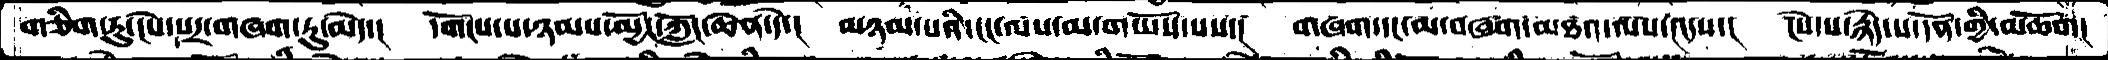གཅིག་ཏུ་ངེས་པར་གཞག་ཏུ་མེད་།  དགོངས་པ་ཉམས་མྱོང་ཀློང་ཆེན་དེ་།  མཉམ་པའི་ངང་ལས་མ་གཡོས་པས་།  གཞག་དང་མ་བཞག་མཐའ་ལས་འདས་།  ངེས་པ་རྙེད་པ་དོན་གྱི་མཆོག།
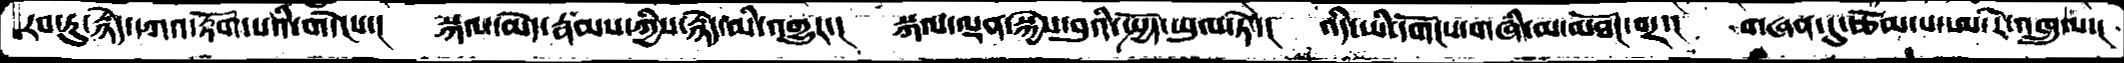རབ་ཏུ་རྙེད་དཀའ་རྟོག་པའི་གདེངས་།  སྐལ་མེད་རྣམས་ཀྱིས་རྙེད་མི་འགྱུར་།  སྐལ་ལྡན་སྐྱེས་བུའི་སྤྱོད་ཡུལ་ཏེ་།  འདི་ཡི་དགོངས་གཞི་མ་མཐོང་བར་།  གཞན་དུ་རྩོམ་པ་ཨ་རེ་འཁྲུལ་།
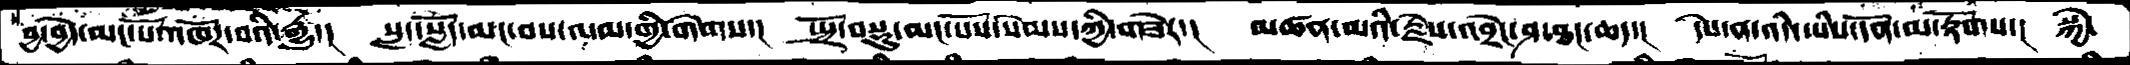བྱ་བྱེད་མང་པོ་འཁོར་བའི་རྒྱུ་།  སླད་སློད་མང་བས་ལམ་གྱི་གེགས་།  སྤྲོ་བསྡུ་མང་པོས་སེམས་ཀྱི་གཟེར་།  མཚན་མའི་རྗེས་འབྲེང་ཤ་ཐང་ཆད་།  དེས་ན་འདི་ཡིས་དོན་མ་རྟོགས་།  སྐྱེ་
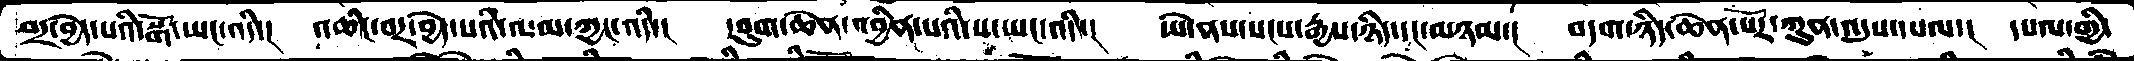བར་བྱེད་པའི་སྒོ་ཡང་འདི་།  འཆིང་བར་བྱེད་པའི་ལམ་ཀྱང་འདི་།  དབུག་ཆེན་འབྱིན་པའི་ས་ཡང་འདི་།  ཡེ་ནས་སངས་རྒྱས་ཉིད་དང་མཉམ་།  བདག་ཉིད་ཆེན་པོར་ཀུན་འདུས་དཔལ་།  དཔལ་གྱི་
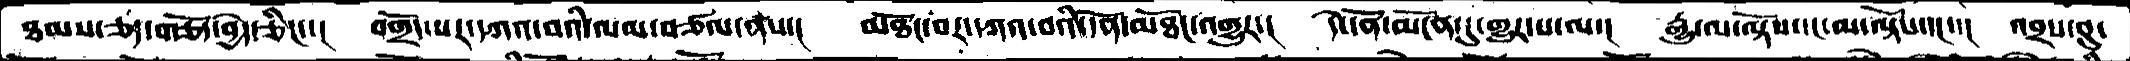ཐམས་ཅད་གཅོད་བྱེད་ཅིང་།  བགྲོད་པར་དཀའ་བའི་ལམ་བཙལ་ནས་།  མཐོང་བར་དཀའ་བའི་དོན་མཐོང་འགྱུར་།  དེ་དོན་མངོན་དུ་གྱུར་པ་ལ་།  རྒྱུ་ལ་ལྟོས་དང་མ་ལྟོས་དང་།  འབྲས་བུ་
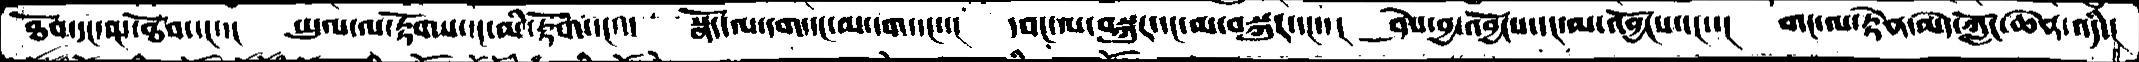ཐོབ་དང་མ་ཐོབ་དང་་།  ཡུལ་ལ་རྟོགས་དང་མི་རྟོག་དང་་་  སྣོད་ལ་དག་དང་མ་དག་དང་་།  དབང་ལ་བསྐུར་དང་མ་བསྐུར་དང་་།  ཤེས་བྱ་འབྱོངས་དང་མ་འབྱོངས་དང་་།  གང་ལ་རྟེན་མེད་ཀློང་ཆེན་འདི་།
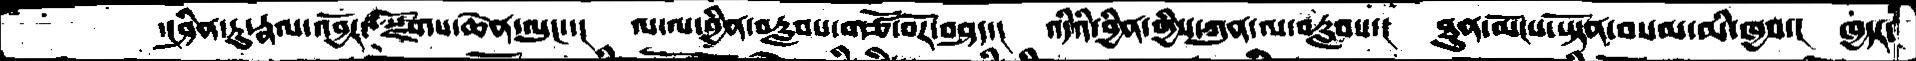་།ཤིན་ཏུ་རྣལ་འབྱོར་སྫོགས་ཆེན་ལུང་་།  ལ་ལ་བྱིན་བརླབས་གཙོ་བོར་བཤད་།  འདིའི་བྱིན་གྱིས་ཀུན་ལ་བརླབས་།  ཐུན་མོངས་ཡྟོན་བསམ་མི་ཁྱབ་།  ཁྱདར་
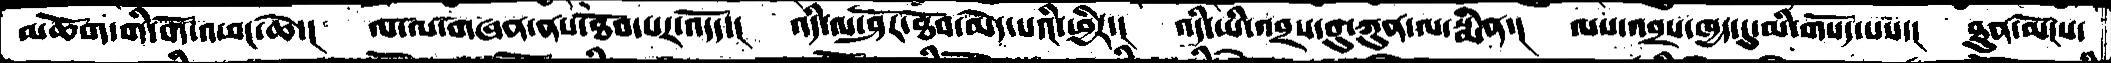མཆོག་གི་གོ་འཕང་ཆེ་།  ལ་ལ་གཞན་ནས་ཐོབ་པར་འདོད་།  འདི་ལ་ཤོར་ཐོབ་མེད་པའི་ཕྱིར་།  འདི་ཡི་འབྲས་བུ་ཀུན་ལ་སྨིན་།  ལས་འབྲས་ཁྱད་དུ་མི་གསོད་པས་།  ཐུན་མོངས་
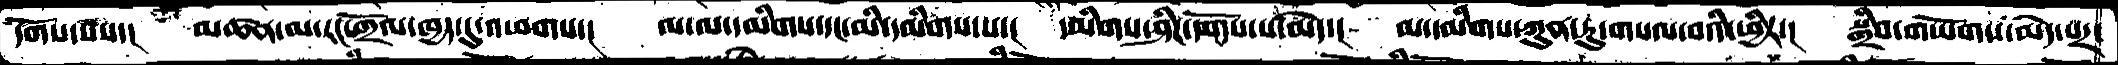དགོས་པས་།  མཚན་མ་རང་་གྲོལ་ཁྱད་དུ་འཕགས་།  ལ་ལ་དམིགས་དང་མི་དམིགས་པ་།  དམིགས་ཤིང་དགོས་པ་མེད་།  མ་དམིགས་ཀུན་ཏུ་གསལ་བའི་ཕྱིར་།  སྒྲིབ་གཡོགས་མེད་པར་
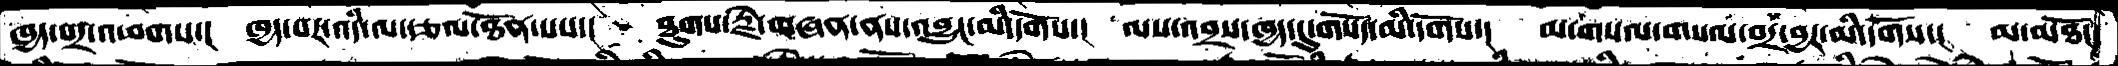ཁྱད་པར་འཕགས་།  ཁྱད་པར་འདི་ལ་རྩལ་ཐོན་པས་།  ཐུགས་རྗེ་གཞན་ནས་འབྱུང་མི་དགོས་།  ལས་འབྲས་ཁྱད་དུ་གསོད་མི་དགོས་།  མ་གསལ་གསལ་བར་བྱར་མི་དགོས་།  མ་མཐོང་
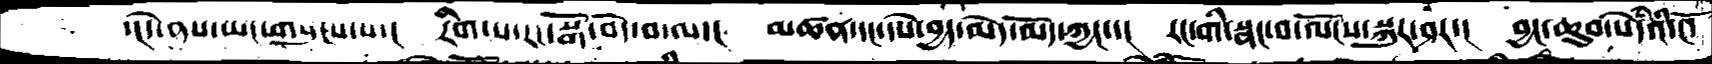་།དེ་ནས་ཡང་གསུངས་པ་།  རིག་པ་རང་སྒོ་བདེ་བ་ལ་།  མཚན་དང་དཔེ་བྱད་མེད་མོད་ཀྱང་་།  རང་གི་སྣང་བ་ལོངས་སྐུར་ཤར་།  བྱང་ཆུབ་སེཾདེའི་ངོ་
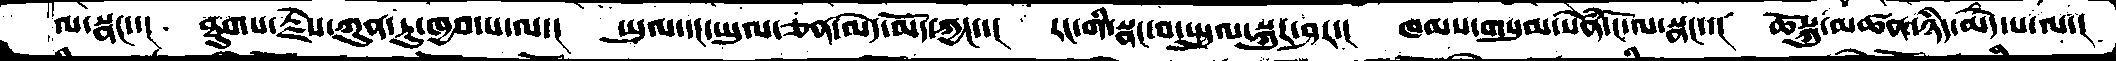ལ་སྣང་་།  ཐུགས་རྗེས་ཀུན་ཏུ་ཁྱབ་པ་ལ་།  ཡུལ་དང་ཡུལ་ཅན་མེད་མོད་ཀྱང་་།  རང་གི་སྣང་བ་སྤྲུལ་སྐུར་ཤར་།  ཁམས་གསུམ་སེཾན་ངོ་ལ་སྣང་་།  ཆོསྐུ་མཚན་ཉིད་མེད་པ་ལ་།
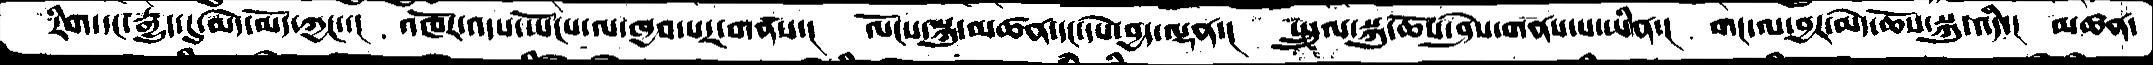རིག་དང་རྒྱུད་དུ་མེད་མོད་ཀྱང་་།  འཁོར་འདས་ཡོངས་ལ་ཁྱབ་པར་གནས་།  ལོངས་སྐུ་མཚན་དང་དཔེ་བྱད་ལྡན་།  སྤྲུལ་སྐུ་ཆོས་ཤེས་གནས་པ་ཡིན་།  གང་ལ་བྱར་མེད་ཆོས་སྐུ་འདི་།  མཚན་
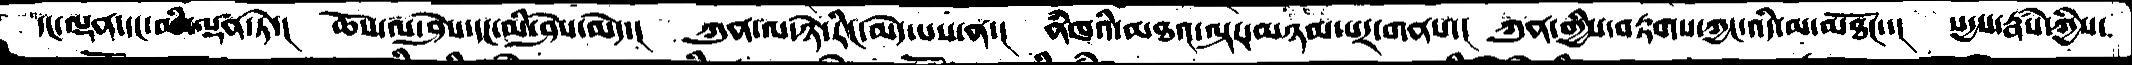དང་ལྡན་དང་མི་ལྡན་ཏེ་།  ཆོས་ལ་ཤེས་དང་མི་ཤེས་མེད་།  ཀུན་ལ་ཉེ་རིང་མེད་པས་ན་།  ནཾཁའི་མཐའ་ལྟར་མཉམ་པར་གནས་།  ཀུན་གྱིས་བརྟགས་ཀྱང་འདི་མ་མཐོང་་།  སདྱས་རྣཾས་ཀྱིས་
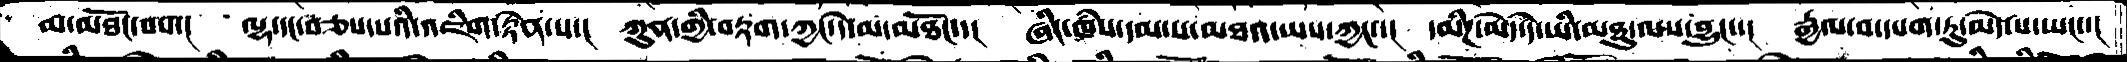མ་མཐོང་བས་།  ལྷ་དང་བཅས་པའི་འཇིག་རྟེན་པ་།  ཀུན་གྱི་བརྟག་ཀྱང་དེ་མ་མཐོང་་།  ཞིང་ཁཾས་དམ་པ་མཐའ་ཡས་ཀྱང་་།  དམིགས་མེད་དེ་ཡི་མཐུ་ལས་བྱུང་་།  རྒྱལ་བ་དཔག་ཏུ་མེད་པ་ཡང་་།
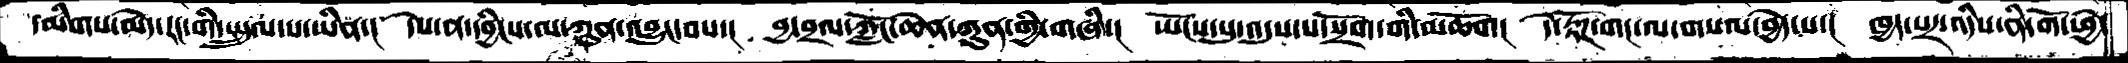དམིགས་མེད་རང་གི་སྤྲུལ་པ་ཡིན་།  དེས་ན་དབྱིངས་ལ་ཀུན་འབྱུང་བས་།  བྱ་བྲལ་ཀློང་ཆེན་ཀུན་གྱི་གཞི་།  ཡོངས་སུ་འདུས་པ་སྲོག་གི་མཆོག།  དེ་རྟོཌ་གང་ལ་གསལ་བྱེད་ས་།  ཁྱད་པར་འདིས་ནི་གོ་ཕྱེ་
